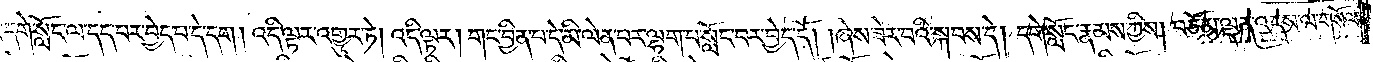དགེ་སློང་ལ་དད་པར་བྱེད་པ་དེ་དག། འདི་ལྟར་འགྱུར་ཏེ། འདི་ལྟར། གང་བྱིན་པ་དེ་མི་ལེན་པར་ལྷག་པ་སློང་བར་བྱེད་དོ། །ཞེས་ཟེར་བའི་སྐབས་དེ། དགེ་སློང་རྣམས་ཀྱིས། བཅོམ་ལྡན་འདས་ལ་གསོལ་
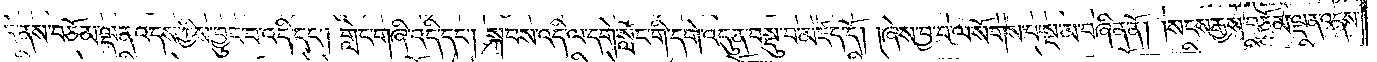དེ་ནས་བཅོམ་ལྡན་འདས་ཀྱིས་བྱུང་བ་འདི་དང༌། གླེང་གཞི་འདི་དང༌། སྐབས་འདི་ལ་དགེ་སློང་གི་དགེ་འདུན་བསྡུ་བ་མཛད་དོ། །ཞེས་བྱ་བ་ལ་སོགས་པ་སྔ་མ་བཞིན་ནོ། །སངས་རྒྱས་བཅོམ་ལྡན་འདས་
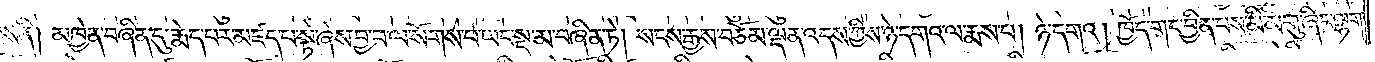ས་ནི། མཁྱེན་བཞིན་དུ་རྨེད་པར་མཛད་པ་སྟེ་ཞེས་བྱ་བ་ལ་སོགས་པ་ཡང་སྔ་མ་བཞིན་ཏེ། སངས་རྒྱས་བཅོམ་ལྡན་འདས་ཀྱིས་ཉེ་དགའ་ལ་རྨས་པ། ཉེ་དགའ། ཁྱོད་གང་བྱིན་པས་མི་མགུ་ཞིང་ལྷག་
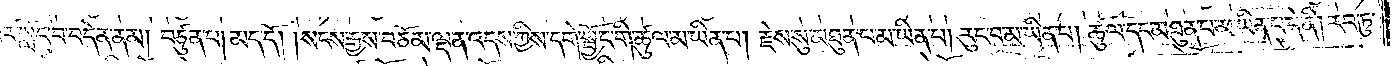པར་སློང་བ་བདེན་ནམ། བཙུན་པ། མད་དོ། །སངས་རྒྱས་བཅོམ་ལྡན་འདས་ཀྱིས་དགེ་སྦྱོང་གི་ཚུལ་མ་ཡིན་པ། རྗེས་སུ་མཐུན་པ་མ་ཡིན་པ། རུང་བ་མ་ཡིན་པ། ཚུལ་དང་མཐུན་པ་མ་ཡིན་པ་དེ་ནི། རབ་ཏུ་
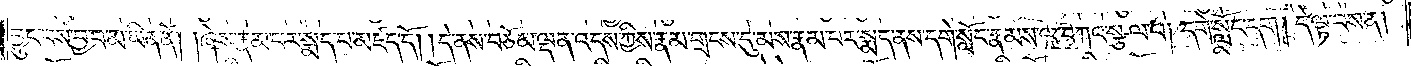བྱུང་བས་བྱ་བ་མ་ཡིན་ནོ། །ཞེས་རྣམ་པར་སྨད་པ་མཛད་དོ། །དེ་ནས་བཅོམ་ལྡན་འདས་ཀྱིས་རྣམ་གྲངས་དུ་མས་རྣམ་པར་སྨད་ནས་དགེ་སློང་རྣམས་ལ་བཀའ་སྩལ་པ། དགེ་སློང་དག། དེ་ལྟ་བས་ན།
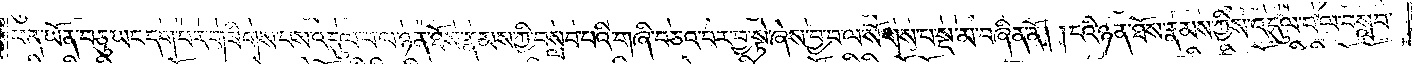ཕན་ཡོན་བཅུ་ཡང་དག་པར་གཟིགས་པས་འདུལ་བ་ལ་ཉན་ཐོས་རྣམས་ཀྱི་བསླབ་པའི་གཞི་བཅའ་བར་བྱ་སྟེ་ཞེས་བྱ་བ་ལ་སོགས་པ་སྔ་མ་བཞིན་ནོ། །ངའི་ཉན་ཐོས་རྣམས་ཀྱིས་འདུལ་བ་ལ་བསླབ་
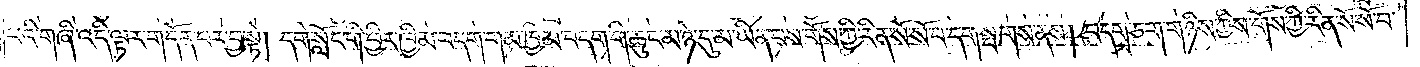པའི་གཞི་འདི་ལྟར་གདོན་པར་བྱ་སྟེ། དགེ་སློང་གི་ཕྱིར་ཁྱིམ་བདག་གམ་ཁྱིམ་བདག་གི་ཆུང་མ་ཉེ་དུ་མ་ཡིན་པས་གོས་ཀྱི་རིན་སོ་སོ་བདག་སྤགས་ནས། བདག་ཅག་གཉིས་ཀྱིས་གོས་ཀྱི་རིན་སོ་སོ་བ་
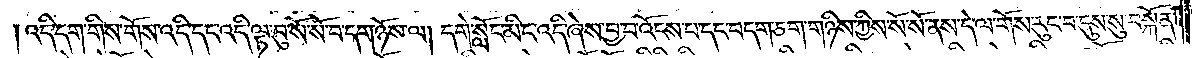འདི་དག་གིས་གོས་འདི་དང་འདི་ལྟ་བུ་སོ་སོ་བ་དག་ཉོས་ལ། དགེ་སློང་མིང་འདི་ཞེས་བྱ་བ་འོངས་པ་དང་བདག་ཅག་གཉིས་ཀྱིས་སོ་སོ་ནས་དེ་ལ་གོས་རུང་བ་དུས་སུ་བསྐོན་
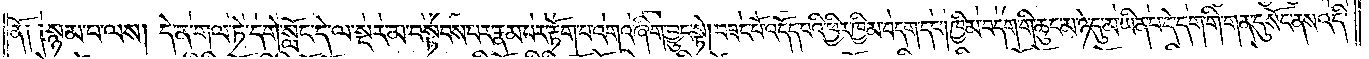ནོ༑༑སྙམ་པ་ལས། དེ་ན་གལ་ཏེ་དགེ་སློང་དེ་ལ་སྔར་མ་བསྟབས་པར་རྣམ་པར་རྟོག་པ་འགའ་ཞིག་བྱུང་སྟེ། བཟང་པོ་འདོད་པའི་ཕྱིར་ཁྱིམ་བདག་དང༌། ཁྱིམ་བདག་གི་ཆུང་མ་ཉེ་དུ་མ་ཡིན་པ་དེ་དག་གི་གན་དུ་སོང་ནས་འདི་
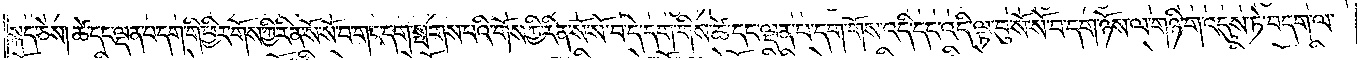སྐད་ཅེས། ཚེ་དང་ལྡན་པ་དག་གི་ཕྱིར་གོས་ཀྱི་རིན་སོ་སོ་བ་གང་དག་སྤགས་པའི་གོས་ཀྱི་རིན་སོ་སོ་བ་དེ་དག་གིས་ཚེ་དང་ལྡན་པ་དག་གོས་འདི་དང་འདི་ལྟ་བུ་སོ་སོ་བ་དག་ཉོས་ལ་གཉི་ག་འདུས་ཏེ་བདག་ལ་
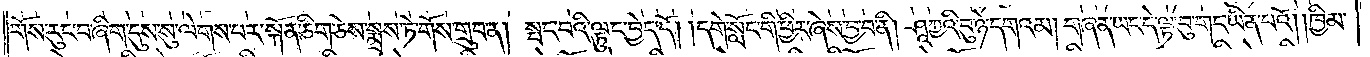གོས་རུང་བ་ཞིག་དུས་སུ་ལེགས་པར་སྐོན་ཅིག་ཅེས་སྨྲས་ཏེ་གོས་གྲུབ་ན། སྤང་བའི་ལྟུང་བྱེད་དོ། །དགེ་སློང་གི་ཕྱིར་ཞེས་བྱ་བ་ནི། ཤཱཀྱའི་བུ་ཉེ་དགའམ། གཞན་ཡང་དེ་ལྟ་བུ་གང་ཡིན་པའོ། །ཁྱིམ་
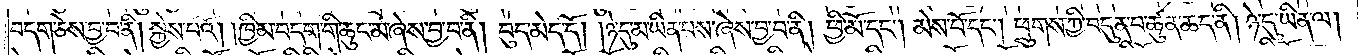བདག་ཅེས་བྱ་བ་ནི། སྐྱེས་པའོ། །ཁྱིམ་བདག་གི་ཆུང་མ་ཞེས་བྱ་བ་ནི། བུད་མེད་དོ། །ཉེ་དུ་མ་ཡིན་པས་ཞེས་བྱ་བ་ནི། ཕྱི་མོ་དང༌། མེས་པོ་དང༌། ཕྲུགས་ཀྱི་བདུན་པ་ཚུན་ཆད་ནི། ཉེ་དུ་ཡིན་ལ།
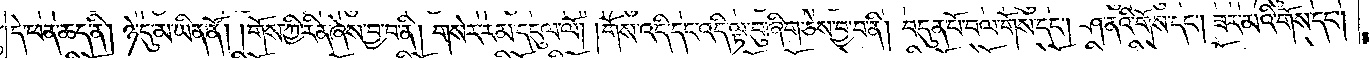དེ་ཕན་ཆད་ནི། ཉེ་དུ་མ་ཡིན་ནོ། །གོས་ཀྱི་རིན་ཞེས་བྱ་བ་ནི། གསེར་རམ་དངུལ་ལོ། །གོས་འདི་དང་འདི་ལྟ་བུ་ཞིག་ཅེས་བྱ་བ་ནི། བདུན་པོ་བལ་གོས་དང༌། ཤ་ནའི་གོས་དང༌། ཟར་མའི་གོས་དང༌།
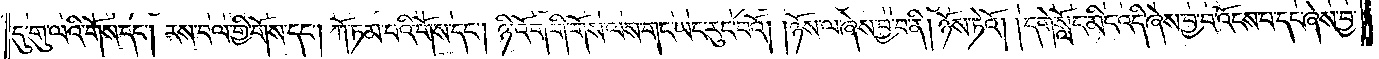དུ་གུ་ལའི་གོས་དང༌། རས་བལ་གྱི་གོས་དང༌། ཀོ་ཏམ་པའི་གོས་དང༌། ཉི་འོག་གི་གོས་ལས་གང་ཡང་རུང་བའོ། །ཉོས་ལ་ཞེས་བྱ་བ་ནི། ཉོས་ཏེའོ། ། དགེ་སློང་མིང་འདི་ཞེས་བྱ་བ་འོངས་པ་དང་ཞེས་བྱ་
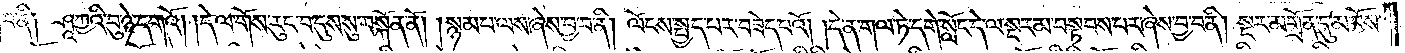བ་ནི། ཤཱཀྱའི་བུ་ཉེ་དགའོ། །དེ་ལ་གོས་རུང་བ་དུས་སུ་བསྐོན་ནོ། །སྙམ་པ་ལས་ཞེས་བྱ་བ་ནི། ལོངས་སྤྱད་པར་བཟེད་པའོ། །དེ་ན་གལ་ཏེ་དགེ་སློང་དེ་ལ་སྔར་མ་བསྟབས་པར་ཞེས་བྱ་བ་ནི། སྔར་མགྲོན་དུ་མ་བོས་
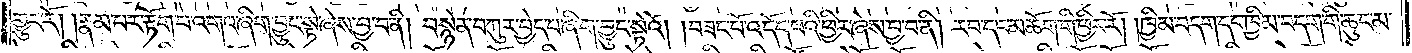གྱུར་རོ། །རྣམ་པར་རྟོག་པ་འགའ་ཞིག་བྱུང་སྟེ་ཞེས་བྱ་བ་ནི། བསྙེན་བཀུར་བྱེད་པ་ཞིག་བྱུང་སྟེའོ། །བཟང་པོ་འདོད་པའི་ཕྱིར་ཞེས་བྱ་བ་ནི། རབ་དང་མཆོག་གི་ཕྱིར་རོ། །ཁྱིམ་བདག་དང་ཁྱིམ་བདག་གི་ཆུང་མ་
